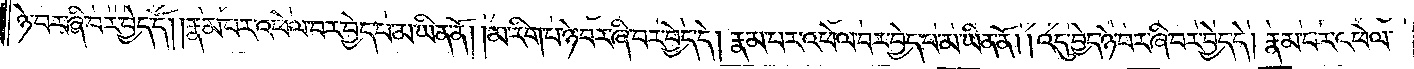ཉེ་བར་ཞི་བར་བྱེད་དོ། །རྣམ་པར་འཕེལ་བར་བྱེད་པ་མ་ཡིན་ནོ། །མ་རིག་པ་ཉེ་བར་ཞི་བར་བྱེད་དེ། རྣམ་པར་འཕེལ་བར་བྱེད་པ་མ་ཡིན་ནོ། །འདུ་བྱེད་ཉེ་བར་ཞི་བར་བྱེད་དེ། རྣམ་པར་འཕེལ་
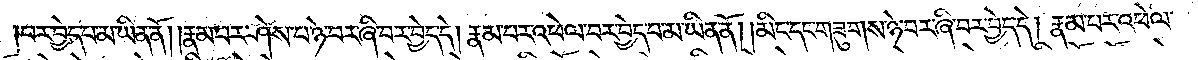བར་བྱེད་པ་མ་ཡིན་ནོ། །རྣམ་པར་ཤེས་པ་ཉེ་བར་ཞི་བར་བྱེད་དེ། རྣམ་པར་འཕེལ་བར་བྱེད་པ་མ་ཡིན་ནོ། །མིང་དང་གཟུགས་ཉེ་བར་ཞི་བར་བྱེད་དེ། རྣམ་པར་འཕེལ་
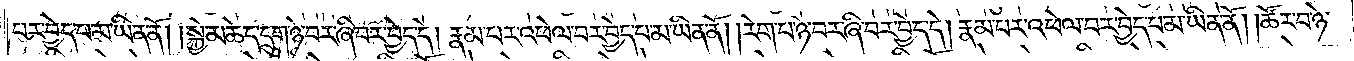བར་བྱེད་པ་མ་ཡིན་ནོ། །སྐྱེ་མཆེད་དྲུག་ཉེ་བར་ཞི་བར་བྱེད་དེ། རྣམ་པར་འཕེལ་བར་བྱེད་པ་མ་ཡིན་ནོ། །རེག་པ་ཉེ་བར་ཞི་བར་བྱེད་དེ། རྣམ་པར་འཕེལ་པར་བྱེད་པ་མ་ཡིན་ནོ། །ཚོར་བ་ཉེ་
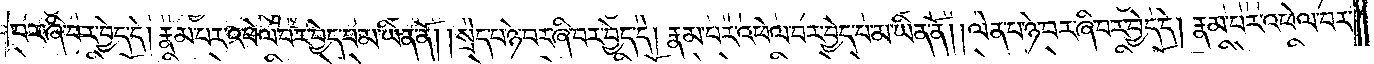བར་ཞི་བར་བྱེད་དེ། རྣམ་པར་འཕེལ་བར་བྱེད་པ་མ་ཡིན་ནོ། །སྲེད་པ་ཉེ་བར་ཞི་བར་བྱེད་དེ། རྣམ་པར་འཕེལ་བར་བྱེད་པ་མ་ཡིན་ནོ། །ལེན་པ་ཉེ་པར་ཞི་བར་བྱེད་དེ། རྣམ་པར་འཕེལ་བར་
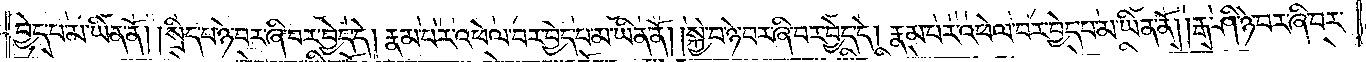བྱེད་པ་མ་ཡིན་ནོ། །སྲིད་པ་ཉེ་བར་ཞི་བར་བྱེད་དེ། རྣམ་པར་འཕེལ་བར་བྱེད་པ་མ་ཡིན་ནོ། །སྐྱེ་བ་ཉེ་བར་ཞི་བར་བྱེད་དེ། རྣམ་པར་འཕེལ་བར་བྱེད་པ་མ་ཡིན་ནོ། །རྒ་ཤི་ཉེ་བར་ཞི་བར་
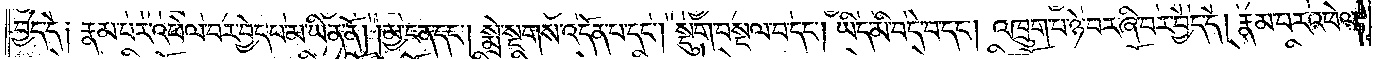བྱེད་དེ། རྣམ་པར་འཕེལ་བར་བྱེད་པ་མ་ཡིན་ནོ། །མྱ་ངན་དང༌། སྨྲེ་སྔགས་འདོན་པ་དང༌། སྡུག་བསྔལ་བ་དང༌། ཡིད་མི་བདེ་བ་དང༌། འཁྲུག་པ་ཉེ་བར་ཞི་བར་བྱེད་དེ། རྣམ་པར་འཕེལ་
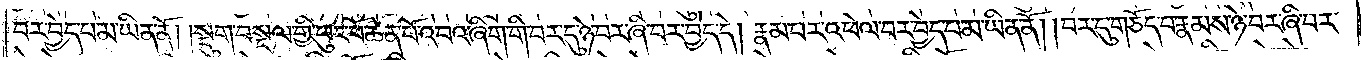བར་བྱེད་པ་མ་ཡིན་ནོ། །སྡུག་བསྔལ་གྱི་ཕུང་པོ་ཆེན་པོ་འབའ་ཞིག་གི་བར་དུ་ཉེ་བར་ཞི་བར་བྱེད་དེ། རྣམ་པར་འཕེལ་བར་བྱེད་པ་མ་ཡིན་ནོ། །བར་དུ་གཅོད་པ་རྣམས་ཉེ་བར་ཞི་བར་
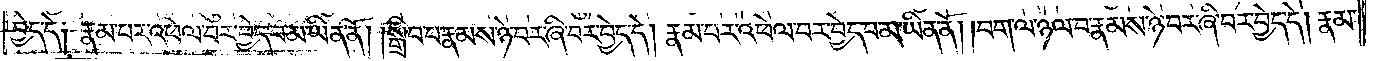བྱེད་དེ། རྣམ་པར་འཕེལ་བར་བྱེད་པ་མ་ཡིན་ནོ། །སྒྲིབ་པ་རྣམས་ཉེ་བར་ཞི་བར་བྱེད་དེ། རྣམ་པར་འཕེལ་བར་བྱེད་པ་མ་ཡིན་ནོ། །བག་ལ་ཉལ་བ་རྣམས་ཉེ་བར་ཞི་བར་བྱེད་དེ། རྣམ་
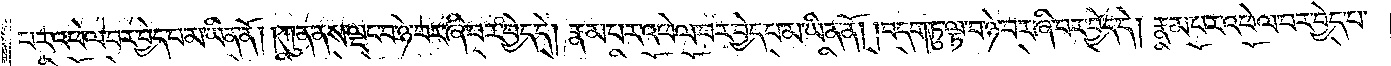པར་འཕེལ་བར་བྱེད་པ་མ་ཡིན་ནོ། །ཀུན་ནས་ལྡང་བ་ཉེ་བར་ཞི་བར་བྱེད་དེ། རྣམ་པར་འཕེལ་བར་བྱེད་པ་མ་ཡིན་ནོ། །བདག་ཏུ་ལྟ་བ་ཉེ་བར་ཞི་བར་བྱེད་དེ། རྣམ་པར་འཕེལ་བར་བྱེད་པ་
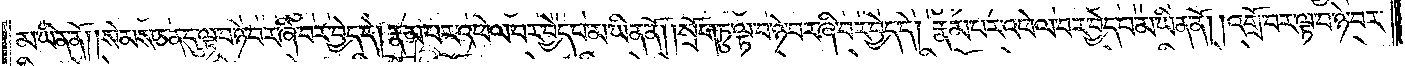མ་ཡིན་ནོ། །སེམས་ཅན་དུ་ལྟ་བ་ཉེ་བར་ཞི་བར་བྱེད་དེ། རྣམ་པར་འཕེལ་བར་བྱེད་པ་མ་ཡིན་ནོ། །སྲོག་ཏུ་ལྟ་བ་ཉེ་བར་ཞི་བར་བྱེད་དེ། རྣམ་པར་འཕེལ་བར་བྱེད་པ་མ་ཡིན་ནོ། །འགྲོ་བར་ལྟ་བ་ཉེ་བར་
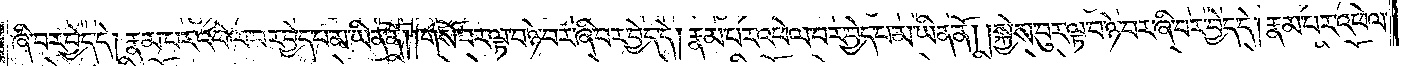ཞི་བར་བྱེད་དེ། རྣམ་པར་འཕེལ་བར་བྱེད་པ་མ་ཡིན་ནོ། །གསོ་བར་ལྟ་བ་ཉེ་བར་ཞི་བར་བྱེད་དེ། རྣམ་པར་འཕེལ་བར་བྱེད་པ་མ་ཡིན་ནོ། །སྐྱེས་བུར་ལྟ་བ་ཉེ་བར་ཞི་བར་བྱེད་དེ། རྣམ་པར་འཕེལ་
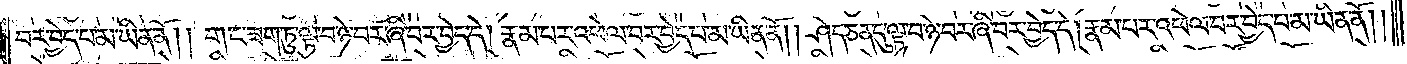བར་བྱེད་པ་མ་ཡིན་ནོ། །གང་ཟག་ཏུ་ལྟ་བ་ཉེ་བར་ཞི་བར་བྱེད་དེ། རྣམ་པར་འཕེལ་བར་བྱེད་པ་མ་ཡིན་ནོ། །ཤེད་ཅན་དུ་ལྟ་བ་ཉེ་བར་ཞི་བར་བྱེད་དེ། རྣམ་པར་འཕེལ་བར་བྱེད་པ་མ་ཡིན་ནོ། །
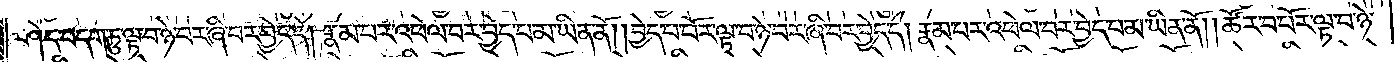ཤེད་བདག་ཏུ་ལྟ་བ་ཉེ་བར་ཞི་བར་བྱེད་དེ། རྣམ་པར་འཕེལ་བར་བྱེད་པ་མ་ཡིན་ནོ། །བྱེད་པ་པོར་ལྟ་བ་ཉེ་བར་ཞི་བར་བྱེད་དེ། རྣམ་པར་འཕེལ་བར་བྱེད་པ་མ་ཡིན་ནོ། །ཚོར་བ་པོར་ལྟ་བ་ཉེ་
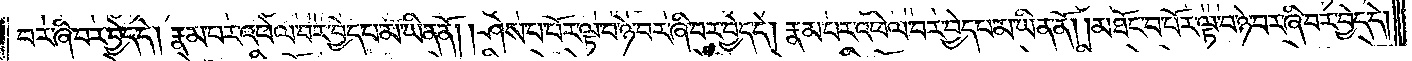བར་ཞི་བར་བྱེད་དེ། རྣམ་པར་འཕེལ་བར་བྱེད་པ་མ་ཡིན་ནོ། །ཤེས་པ་པོར་ལྟ་བ་ཉེ་བར་ཞི་བར་བྱེད་དེ། རྣམ་པར་འཕེལ་བར་བྱེད་པ་མ་ཡིན་ནོ། །མཐོང་བ་པོར་ལྟ་བ་ཉེ་བར་ཞི་བར་བྱེད་དེ།
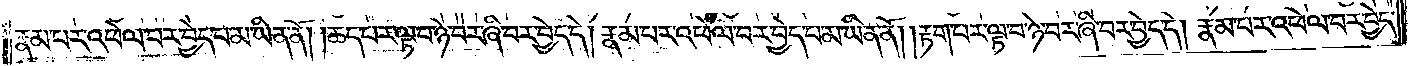རྣམ་པར་འཕེལ་བར་བྱེད་པ་མ་ཡིན་ནོ། །ཆད་པར་ལྟ་བ་ཉེ་བར་ཞི་བར་བྱེད་དེ། རྣམ་པར་འཕེལ་བར་བྱེད་པ་མ་ཡིན་ནོ། །རྟག་པར་ལྟ་བ་ཉེ་བར་ཞི་བར་བྱེད་དེ། རྣམ་པར་འཕེལ་བར་བྱེད་
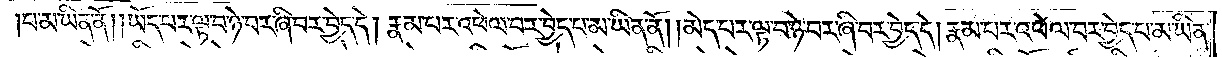པ་མ་ཡིན་ནོ། །ཡོད་པར་ལྟ་བ་ཉེ་བར་ཞི་བར་བྱེད་དེ། རྣམ་པར་འཕེལ་བར་བྱེད་པ་མ་ཡིན་ནོ། །མེད་པར་ལྟ་བ་ཉེ་བར་ཞི་བར་བྱེད་དེ། རྣམ་པར་འཕེལ་བར་བྱེད་པ་མ་ཡིན་
